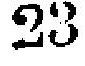23
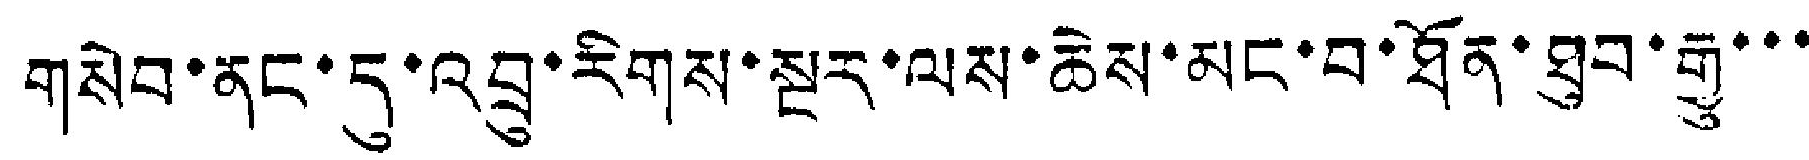གསེབ་ནང་དུ་འབྲུ་རིགས་སྔར་ལས་ཆེས་མང་བ་ཐོན་ཐུབ་རྒྱུ་་་
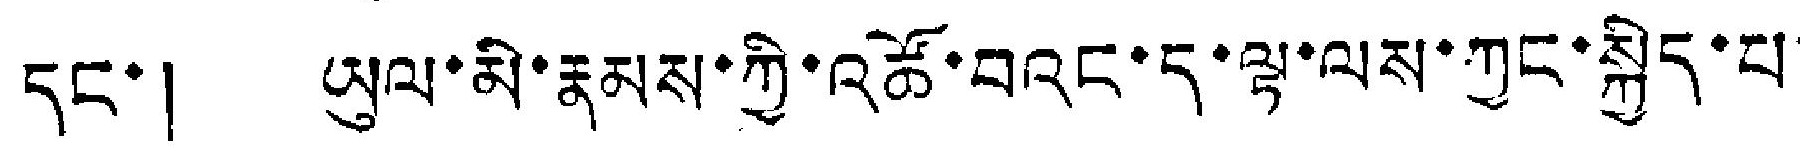དང་། ཡུལ་མི་རྣམས་ཀྱི་འཚོ་བའང་ད་ལྟ་ལས་ཀྱང་སྐྱིད་པ་
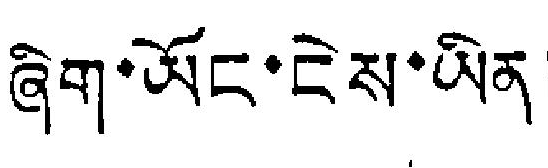ཞིག་ཡོང་ངེས་ཡིན།
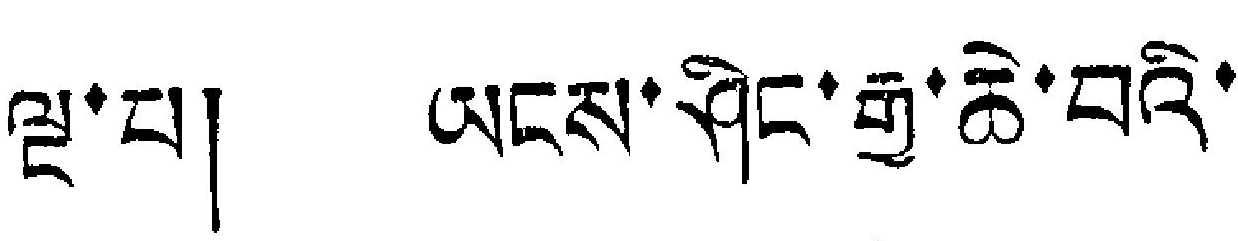ལྔ་པ། ཡངས་ཤིང་རྒྱ་ཆེ་བའི་
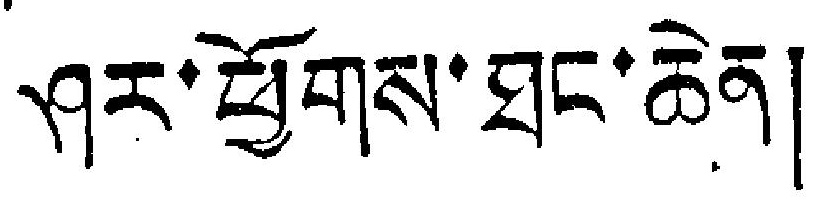ཤར་ཕྱོགས་ཐང་ཆེན།
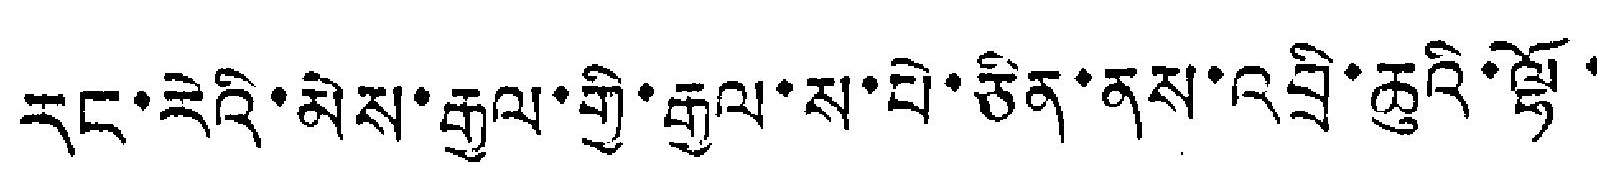རང་རེའི་མེས་རྒྱལ་གྱི་རྒྱལ་ས་པེ་ཅིན་ནས་འབྲི་ཆུའི་ལྷོ་
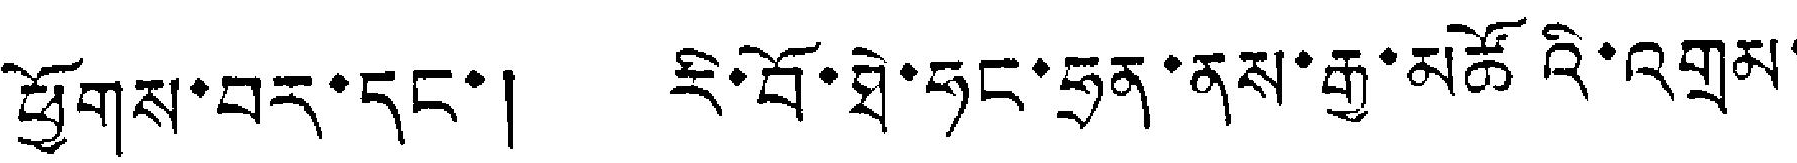ཕྱོགས་བར་དང་། རི་བོ་ཐེ་ཧང་ཧྲན་ནས་རྒྱ་མཚོའི་འགྲམ་
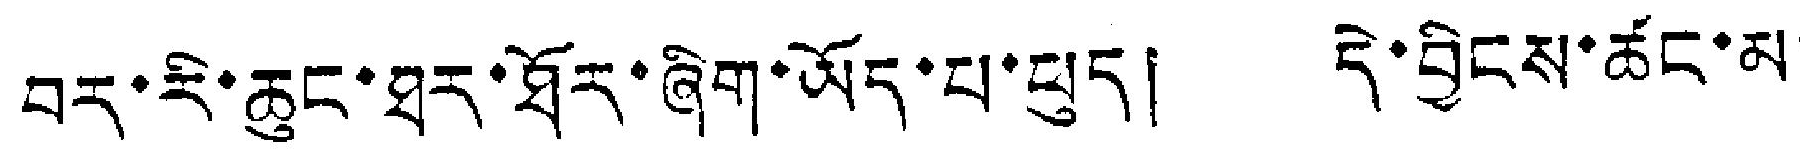བར་རི་ཆུང་ཐར་ཐོར་ཞིག་ཡོད་པ་ཕུད། དེ་བྱིངས་ཚང་མ་
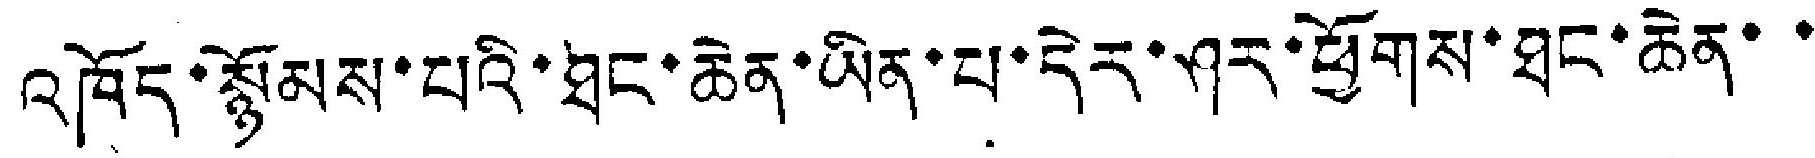འཁོད་སྙོམས་པའི་ཐང་ཆེན་ཡིན་པ་དེར་ཤར་ཕྱོགས་ཐང་ཆེན་་་
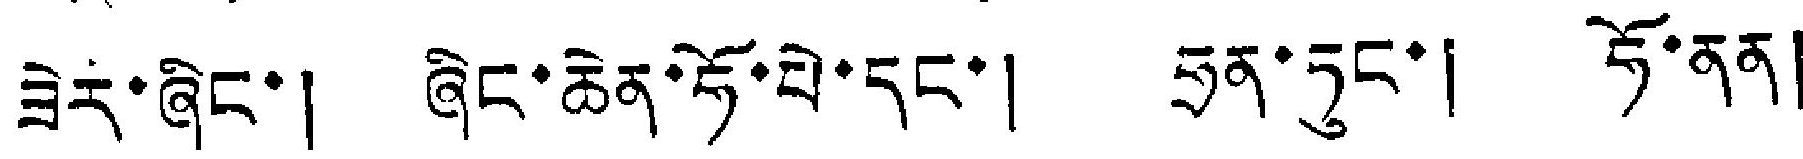ཟེར་ཞིང་། ཞིང་ཆེན་ཧོ་པེ་དང་། ཧྲན་ཏུང་། ཧོ་ནན།
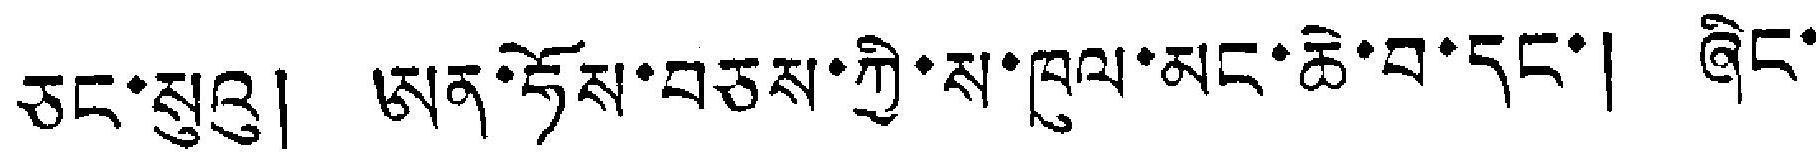ཅང་སུའུ། ཨན་ཧོས་བཅས་ཀྱི་ས་ཁུལ་མང་ཆེ་བ་དང་། ཞིང་
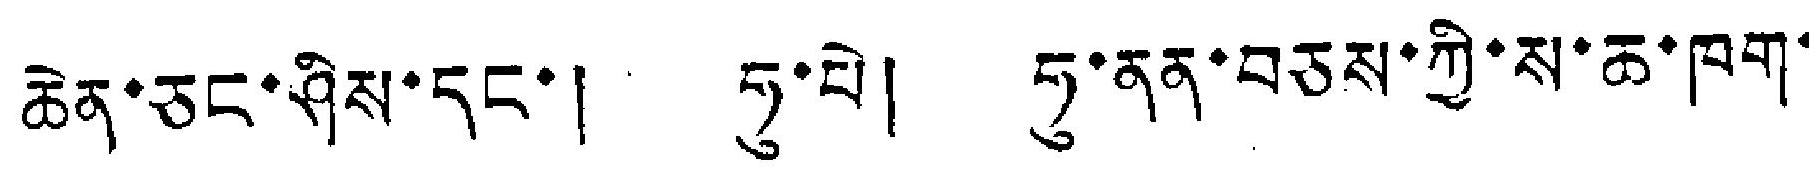ཆེན་ཅང་ཤིས་དང་། ཧུ་པེ། ཧུ་ནན་བཅས་ཀྱི་ས་ཆ་ཁག་
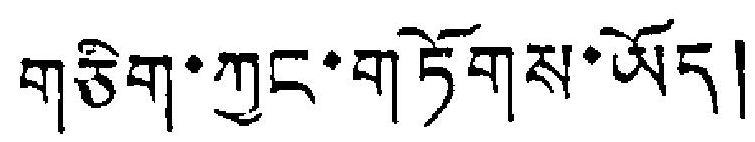གཅིག་ཀྱང་གཏོགས་ཡོད།
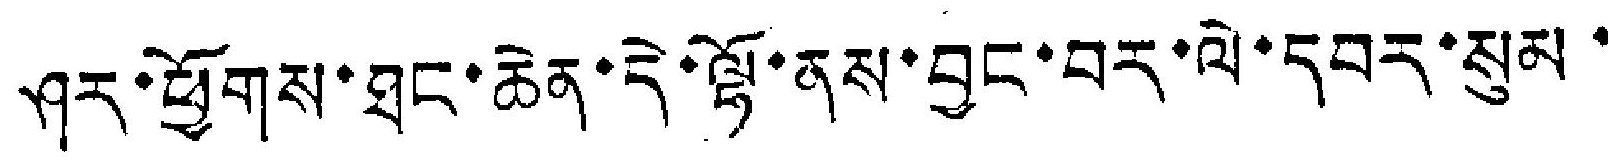ཤར་ཕྱོགས་ཐང་ཆེན་དེ་ལྟོ་ནས་བྱང་བར་ལེ་དབར་སུམ་
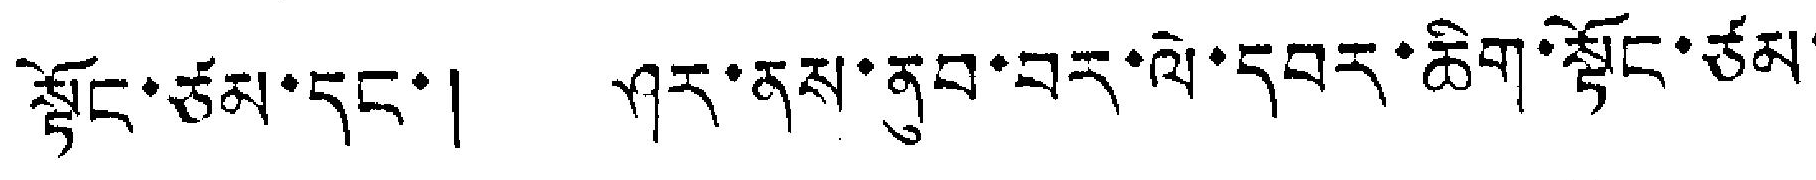སྟོང་ཙམ་དང་། ཤར་ནས་ནུབ་བར་ལེ་དབར་ཆིག་སྟོང་ཙམ་
